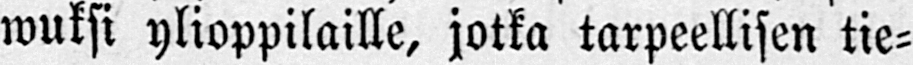wuksi ylioppilaille, jotka tarpeellisen tie-
